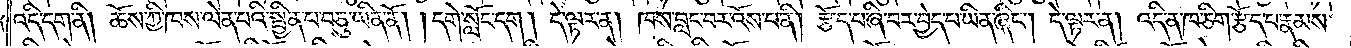འདི་དག་ནི། ཆོས་ཀྱི་ཁས་ལེན་པའི་སྦྱིན་པ་བཅུ་ཡིན་ནོ། །དགེ་སློང་དག །དེ་ལྟར་ན། ཁས་བླང་བར་འོས་པ་ནི། རྩོད་པ་ཞི་བར་བྱེད་པ་ཡིན་ཞིང༌། དེ་ལྟར་ན། འདི་ན་ཁ་ཅིག་རྩོད་པ་རྣམས་
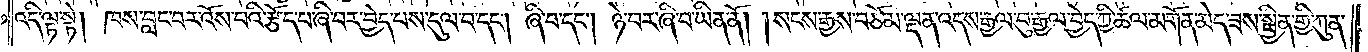འདི་ལྟ་སྟེ། ཁས་བླང་བར་འོས་པའི་རྩོད་པ་ཞི་བར་བྱེད་པས་དུལ་བ་དང༌། ཞི་བ་དང༌། ཉེ་བར་ཞི་བ་ཡིན་ནོ། །སངས་རྒྱས་བཅོམ་ལྡན་འདས་རྒྱལ་བུ་རྒྱལ་བྱེད་ཀྱི་ཚལ་མགོན་མེད་ཟས་སྦྱིན་གྱི་ཀུན་
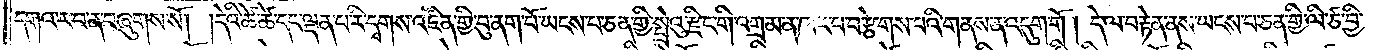དགའ་ར་བ་ན་བཞུགས་སོ། །དེའི་ཚེ་ཚེ་དང་ལྡན་པ་རི་དྭགས་འཛིན་གྱི་བུ་ནག་པོ་ཡངས་པ་ཅན་གྱི་སྤྲེའུ་རྫིང་གི་འགྲམ་ན་ཁང་པ་བརྩེགས་པའི་གནས་ན་འདུག་གོ །དེ་ལ་བརྟེན་ནས་ཡངས་པ་ཅན་གྱི་ལི་ཙ་བྱི་
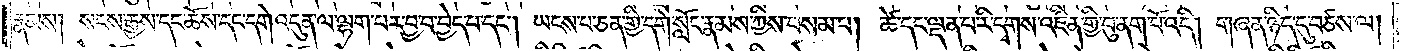རྣམས། སངས་རྒྱས་དང་ཆོས་དང་དགེ་འདུན་ལ་ལྷག་པར་བྱ་བ་བྱེད་པ་དང༌། ཡངས་པ་ཅན་གྱི་དགེ་སློང་རྣམས་ཀྱིས་བསམ་པ། ཚེ་དང་ལྡན་པ་རི་དྭགས་འཛིན་གྱི་བུ་ནག་པོ་འདི། གཞན་ཉིད་དུ་བཙས་ལ།
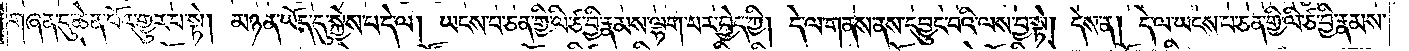གཞན་དུ་ཆེན་པོར་གྱུར་པ་སྟེ། མཉན་ཡོད་དུ་སྐྱེས་པ་དེ་ལ། ཡངས་པ་ཅན་གྱི་ལི་ཙ་བྱི་རྣམས་ལྷག་པར་བྱེད་ཀྱི། དེ་ལ་གནས་ནས་དབྱུང་བའི་ལས་བྱ་སྟེ། དེས་ན། དེ་ལ་ཡངས་པ་ཅན་གྱི་ལི་ཙ་བྱི་རྣམས་
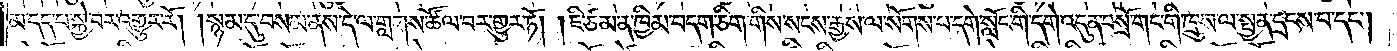མ་དད་པ་སྐྱེ་བར་འགྱུར་རོ། །སྙམ་དུ་བསམ་ནས་དེ་ལ་གླགས་ཚོལ་བར་གྱུར་ཏོ། །ཇི་ཙམ་ན་ཁྱིམ་བདག་ཅིག་གིས་སངས་རྒྱས་ལ་སོགས་པ་དགེ་སློང་གི་དགེ་འདུན་བསྲོ་གང་གི་ཁྲུས་པ་སྤྱན་དྲངས་པ་དང༌།
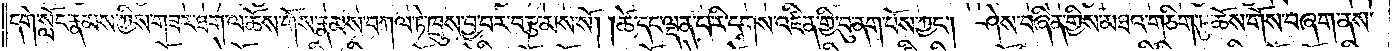དགེ་སློང་རྣམས་ཀྱིས་གཟར་ཐག་ལ་ཆོས་གོས་རྣམས་བཀལ་ཏེ་ཁྲུས་བྱ་བར་བརྩམས་སོ། །ཚེ་དང་ལྡན་པ་རི་དྭགས་འཛིན་གྱི་བུ་ནག་པོས་ཀྱང༌། ཤེས་བཞིན་གྱིས་མཐའ་གཅིག་ཏུ་ཆོས་གོས་བཞག་ནས་
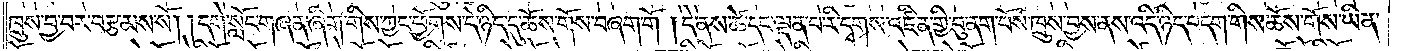ཁྲུས་བྱ་བར་བརྩམས་སོ། །དགེ་སློང་གཞན་ཞིག་གིས་ཀྱང་ཕྱོགས་དེ་ཉིད་དུ་ཆོས་གོས་བཞག་གོ །དེ་ནས་ཚེ་དང་ལྡན་པ་རི་དྭགས་འཛིན་གྱི་བུ་ནག་པོས་ཁྲུས་བྱས་ནས་འདི་ཉིད་བདག་གིས་ཆོས་གོས་ཡིན་
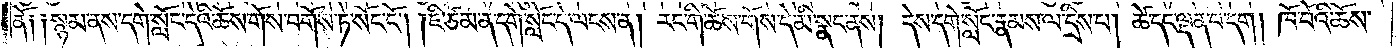ནོ། །སྙམ་ནས་དགེ་སློང་དེའི་ཆོས་གོས་བགོས་ཏེ་སོང་ངོ༌། །ཇི་ཙམ་ན་དགེ་སློང་དེ་ལངས་ན། རང་གི་ཆོས་གོས་དེ་མི་སྣང་ནས། དེས་དགེ་སློང་རྣམས་ལ་དྲིས་པ། ཚེ་དང་ལྡན་པ་དག །ཁོ་བོའི་ཆོས་
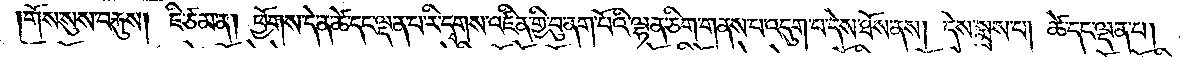གོས་སུས་བརྐུས། ཇི་ཙམ་ན། ཕྱོགས་དེ་ན་ཚེ་དང་ལྡན་པ་རི་དྭགས་འཛིན་གྱི་བུ་ནག་པོའི་ལྷན་ཅིག་གནས་པ་འདུག་བ་དེས་ཐོས་ནས། དེས་སྨྲས་པ། ཚེ་དང་ལྡན་པ།
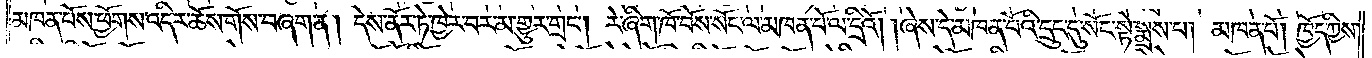མཁན་པོས་ཕྱོགས་འདིར་ཆོས་གོས་བཞག་ན། དེས་ནོར་ཏེ་ཁྱེར་བར་མ་གྱུར་གྲང༌། རེ་ཞིག་ཁོ་བོས་སོང་ལ་མཁན་པོ་ལ་དྲིའོ། །ཞེས་དེ་མཁན་པོའི་དྲུང་དུ་སོང་སྟེ་སྨྲས་པ། མཁན་པོ། ཁྱོད་ཀྱིས་
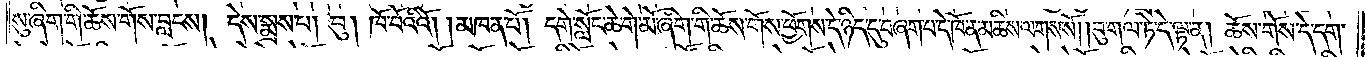སུ་ཞིག་གི་ཆོས་གོས་བླངས། དེས་སྨྲས་པ། བུ། ཁོ་བོའིའོ། །མཁན་པོ། དགེ་སློང་ཆེ་གེ་མོ་ཞིག་གི་ཆོས་གོས་ཕྱོགས་དེ་ཉིད་དུ་བཞག་པ་དེ་ཁོ་ན་མཆིས་ལགས་སོ། །བུ་གལ་ཏེ་དེ་ལྟ་ན། ཆོས་གོས་དེ་དག་
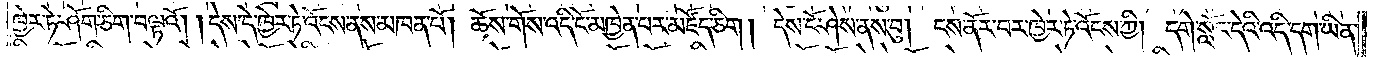ཁྱེར་ཏེ་ཤོག་ཅིག་བལྟའོ། །དེས་དེ་ཁྱེར་ཏེ་འོངས་ནས་མཁན་པོ། ཆོས་གོས་འདི་ངོ་མཁྱེན་པར་མཛོད་ཅིག །དེས་ངོ་ཤེས་ནས་བུ། ངས་ནོར་བར་ཁྱེར་ཏེ་འོངས་ཀྱི། དགེ་སློང་དེའི་འདི་དག་ཡིན་
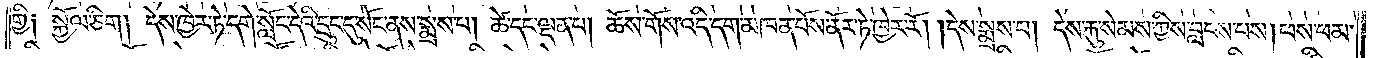གྱི། སྐྱོལ་ཅིག །དེས་ཁྱེར་ཏེ་དགེ་སློང་དེའི་དྲུང་དུ་སོང་ནས་སྨྲས་པ། ཚེ་དང་ལྡན་པ། ཆོས་གོས་འདི་དག་མཁན་པོས་ནོར་ཏེ་ཁྱེར་རོ། །དེས་སྨྲས་པ། དེས་རྐུ་སེམས་ཀྱིས་བླངས་པས། ཕས་ཕམ་
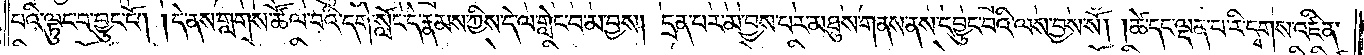པའི་ལྟུང་བ་བྱུང་ངོ༌། །དེ་ནས་གླགས་ཚོལ་བའི་དགེ་སློང་དེ་རྣམས་ཀྱིས་དེ་ལ་གླེང་བ་མ་བྱས། དྲན་པར་མ་བྱས་པར་མཐུས་གནས་ནས་དབྱུང་བའི་ལས་བྱས་སོ། །ཚེ་དང་ལྡན་པ་རི་དྭགས་འཛིན་
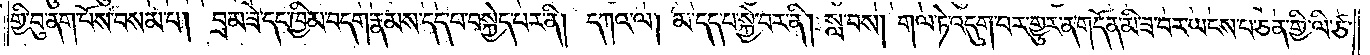གྱི་བུ་ནག་པོས་བསམ་པ། བྲམ་ཟེ་དང་ཁྱིམ་བདག་རྣམས་དད་པ་བསྐྱེད་པར་ནི། དཀའ་ལ། མ་དད་པ་སྐྱེ་བར་ནི། སླ་བས། གལ་ཏེ་འདུག་པར་གྱུར་ན་གདོན་མི་ཟ་བར་ཡངས་པ་ཅན་གྱི་ལི་ཙ་
